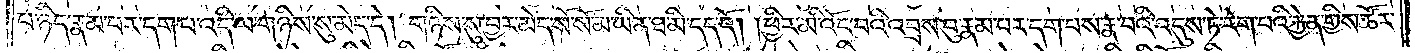པ་ཉིད་རྣམ་པར་དག་པ་འདི་ལ་གཉིས་སུ་མེད་དེ། གཉིས་སུ་བྱར་མེད་སོ་སོ་མ་ཡིན་ཐ་མི་དད་དོ། །ཕྱིར་མི་འོང་བའི་འབྲས་བུ་རྣམ་པར་དག་པས་རྣ་བའི་འདུས་ཏེ་རེག་པའི་རྐྱེན་གྱིས་ཚོར་
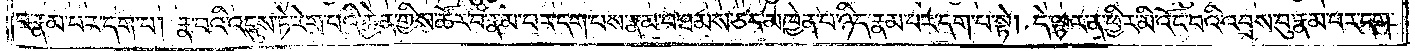བ་རྣམ་པར་དག་པ། རྣ་བའི་འདུས་ཏེ་རེག་པའི་རྐྱེན་གྱིས་ཚོར་བ་རྣམ་པར་དག་པས་རྣམ་པ་ཐམས་ཅད་མཁྱེན་པ་ཉིད་རྣམ་པར་དག་པ་སྟེ། དེ་ལྟར་ན་ཕྱིར་མི་འོང་བའི་འབྲས་བུ་རྣམ་པར་དག་
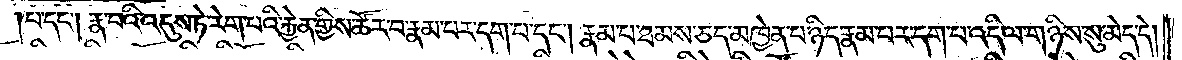པ་དང༌། རྣ་བའི་འདུས་ཏེ་རེག་པའི་རྐྱེན་གྱིས་ཚོར་བ་རྣམ་པར་དག་པ་དང༌། རྣམ་པ་ཐམས་ཅད་མཁྱེན་པ་ཉིད་རྣམ་པར་དག་པ་འདི་ལ་གཉིས་སུ་མེད་དེ།
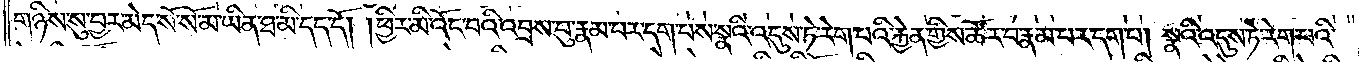གཉིས་སུ་བྱར་མེད་སོ་སོ་མ་ཡིན་ཐ་མི་དད་དོ། །ཕྱིར་མི་འོང་བའི་འབྲས་བུ་རྣམ་པར་དག་པས་སྣའི་འདུས་ཏེ་རེག་པའི་རྐྱེན་གྱིས་ཚོར་བ་རྣམ་པར་དག་པ། སྣའི་འདུས་ཏེ་རེག་པའི་
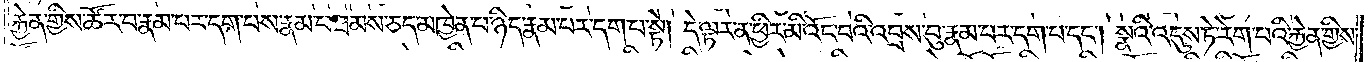རྐྱེན་གྱིས་ཚོར་བ་རྣམ་པར་དག་པས་རྣམ་པ་ཐམས་ཅད་མཁྱེན་པ་ཉིད་རྣམ་པར་དག་པ་སྟེ། དེ་ལྟར་ན་ཕྱིར་མི་འོང་བའི་འབྲས་བུ་རྣམ་པར་དག་པ་དང༌། སྣའི་འདུས་ཏེ་རེག་པའི་རྐྱེན་གྱིས་
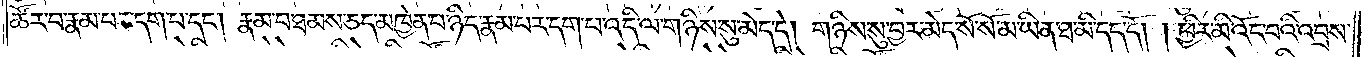ཚོར་བ་རྣམ་པར་དག་པ་དང༌། རྣམ་པ་ཐམས་ཅད་མཁྱེན་པ་ཉིད་རྣམ་པར་དག་པ་འདི་ལ་གཉིས་སུ་མེད་དེ། གཉིས་སུ་བྱར་མེད་སོ་སོ་མ་ཡིན་ཐ་མི་དད་དོ། །ཕྱིར་མི་འོང་བའི་འབྲས་
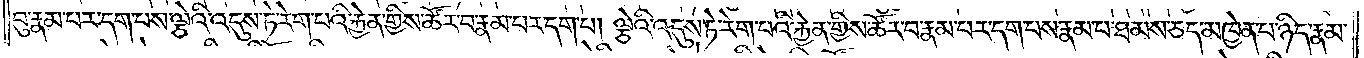བུ་རྣམ་པར་དག་པས་ལྕེའི་འདུས་ཏེ་རེག་པའི་རྐྱེན་གྱིས་ཚོར་བ་རྣམ་པར་དག་པ། ལྕེའི་འདུས་ཏེ་རེག་པའི་རྐྱེན་གྱིས་ཚོར་བ་རྣམ་པར་དག་པས་རྣམ་པ་ཐམས་ཅད་མཁྱེན་པ་ཉིད་རྣམ་
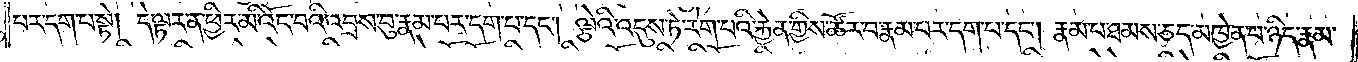པར་དག་པ་སྟེ། དེ་ལྟར་ན་ཕྱིར་མི་འོང་བའི་འབྲས་བུ་རྣམ་པར་དག་པ་དང༌། ལྕེའི་འདུས་ཏེ་རེག་པའི་རྐྱེན་གྱིས་ཚོར་བ་རྣམ་པར་དག་པ་དང༌། རྣམ་པ་ཐམས་ཅད་མཁྱེན་པ་ཉིད་རྣམ་
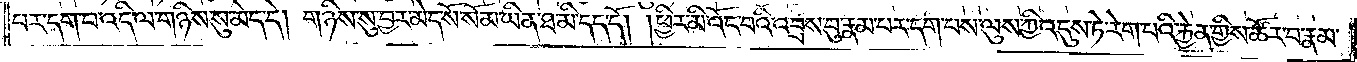པར་དག་པ་འདི་ལ་གཉིས་སུ་མེད་དེ། གཉིས་སུ་བྱར་མེད་སོ་སོ་མ་ཡིན་ཐ་མི་དད་དོ། །ཕྱིར་མི་འོང་བའི་འབྲས་བུ་རྣམ་པར་དག་པས་ལུས་ཀྱི་འདུས་ཏེ་རེག་པའི་རྐྱེན་གྱིས་ཚོར་བ་རྣམ་
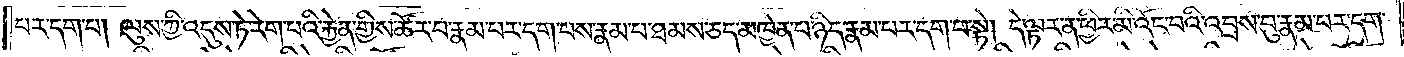པར་དག་པ། ལུས་ཀྱི་འདུས་ཏེ་རེག་པའི་རྐྱེན་གྱིས་ཚོར་བ་རྣམ་པར་དག་པས་རྣམ་པ་ཐམས་ཅད་མཁྱེན་པ་ཉིད་རྣམ་པར་དག་པ་སྟེ། དེ་ལྟར་ན་ཕྱིར་མི་འོང་བའི་འབྲས་བུ་རྣམ་པར་དག་
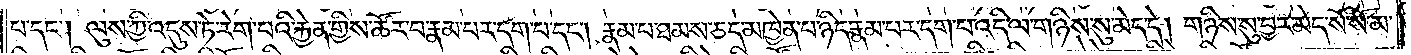པ་དང༌། ལུས་ཀྱི་འདུས་ཏེ་རེག་པའི་རྐྱེན་གྱིས་ཚོར་བ་རྣམ་པར་དག་པ་དང༌། རྣམ་པ་ཐམས་ཅད་མཁྱེན་པ་ཉིད་རྣམ་པར་དག་པ་འདི་ལ་གཉིས་སུ་མེད་དེ། གཉིས་སུ་བྱར་མེད་སོ་སོ་མ་
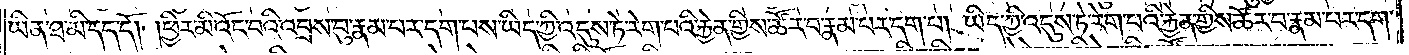ཡིན་ཐ་མི་དད་དོ། །ཕྱིར་མི་འོང་བའི་འབྲས་བུ་རྣམ་པར་དག་པས་ཡིད་ཀྱི་འདུས་ཏེ་རེག་པའི་རྐྱེན་གྱིས་ཚོར་བ་རྣམ་པར་དག་པ། ཡིད་ཀྱི་འདུས་ཏེ་རེག་པའི་རྐྱེན་གྱིས་ཚོར་བ་རྣམ་པར་དག་
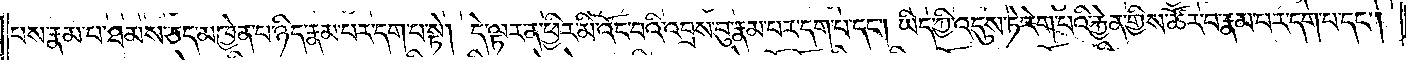པས་རྣམ་པ་ཐམས་ཅད་མཁྱེན་པ་ཉིད་རྣམ་པར་དག་པ་སྟེ། དེ་ལྟར་ན་ཕྱིར་མི་འོང་བའི་འབྲས་བུ་རྣམ་པར་དག་པ་དང༌། ཡིད་ཀྱི་འདུས་ཏེ་རེག་པའི་རྐྱེན་གྱིས་ཚོར་བ་རྣམ་པར་དག་པ་དང༌།
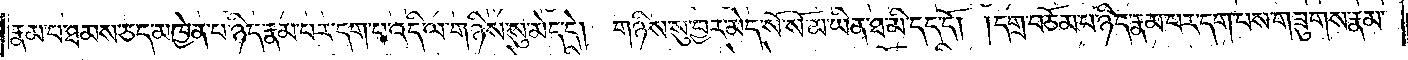རྣམ་པ་ཐམས་ཅད་མཁྱེན་པ་ཉིད་རྣམ་པར་དག་པ་འདི་ལ་གཉིས་སུ་མེད་དེ། གཉིས་སུ་བྱར་མེད་སོ་སོ་མ་ཡིན་ཐ་མི་དད་དོ། །དགྲ་བཅོམ་པ་ཉིད་རྣམ་པར་དག་པས་གཟུགས་རྣམ་
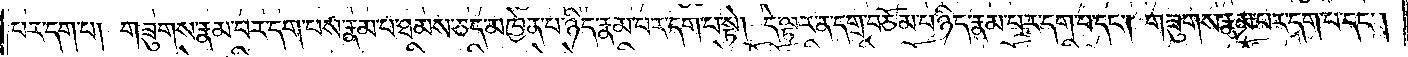པར་དག་པ། གཟུགས་རྣམ་པར་དག་པས་རྣམ་པ་ཐམས་ཅད་མཁྱེན་པ་ཉིད་རྣམ་པར་དག་པ་སྟེ། དེ་ལྟར་ན་དགྲ་བཅོམ་པ་ཉིད་རྣམ་པར་དག་པ་དང༌། གཟུགས་རྣམ་པར་དག་པ་དང༌།
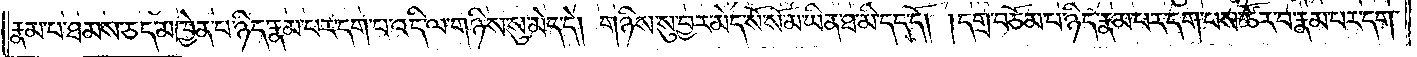རྣམ་པ་ཐམས་ཅད་མཁྱེན་པ་ཉིད་རྣམ་པར་དག་པ་འདི་ལ་གཉིས་སུ་མེད་དེ། གཉིས་སུ་བྱར་མེད་སོ་སོ་མ་ཡིན་ཐ་མི་དད་དོ། །དགྲ་བཅོམ་པ་ཉིད་རྣམ་པར་དག་པས་ཚོར་བ་རྣམ་པར་དག་
